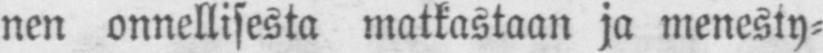nen onnellisesta matkastaan ja menesty-
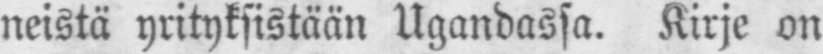neistä yrityksistään Ugandassa. Kirje on
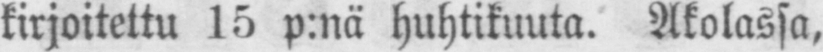kirjoitettu 15 p:nä huhtikuuta. Akolassa,
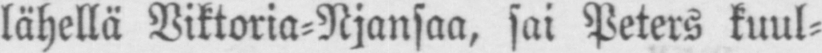lähellä Viktoria-Njansaa, sai Peters kuul-
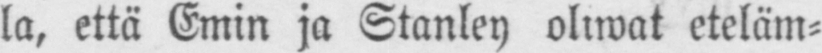la, että Emin ja Stanley oliwat eteläm-
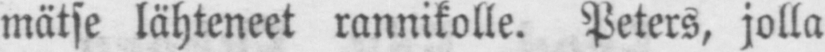mätse lähteneet rannikolle. Peters, jolla
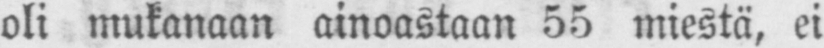oli mukanaan ainoastaan 55 miestä, ei
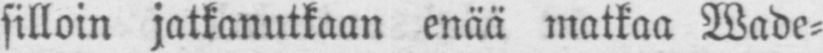silloin jatkanutkaan enää matkaa Wade-
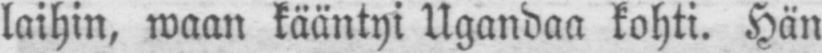laihin, waan kääntyi Ugandaa kohti. Hän
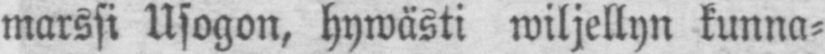marssi Usogon, hywästi wiljellyn kunna-
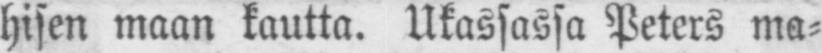hisen maan kautta. Ukassassa Peters ma-
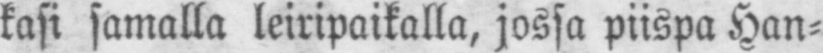kasi samalla leiripaikalla, jossa piispa Han-
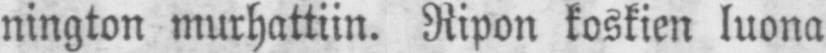nington murhattiin. Ripon koskien luona
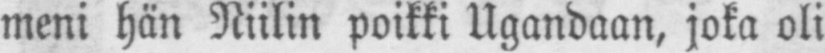meni hän Niilin poikki Ugandaan, joka oli
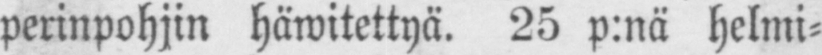perinpohjin häwitettyä. 25 p:nä helmi-
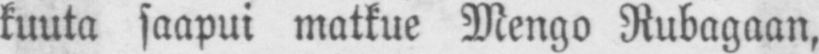kuuta saapui matkue Mengo Rubagaan,
